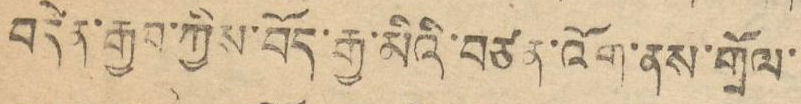བདེན་རྒྱབ་ཀྱིས་བོད་རྒྱ་མིའི་བཙན་འོག་ནས་གྲོལ་
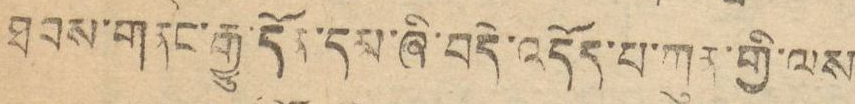ཐབས་གནང་རྒྱུ་དོན་དམ་ཞི་བདེ་འདོད་པ་ཀུན་གྱི་ལས
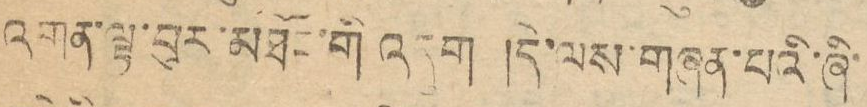འགན་ལྟ་བུར་མཐོང་གི་འདུག །དེ་ལས་གཞན་པའི་ཞི་
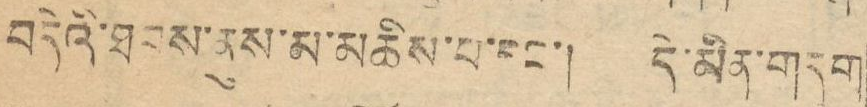བདེའི་ཐབས་ནུས་མ་མཆིས་པ་རང་། དེ་མིན་གདུག
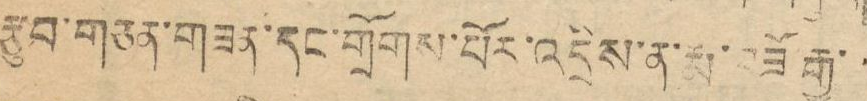རྩུབ་གཅན་གཟན་དང་གྲོགས་པོར་འདྲེས་ན་རྨ་བཟོ་རྒྱུ་
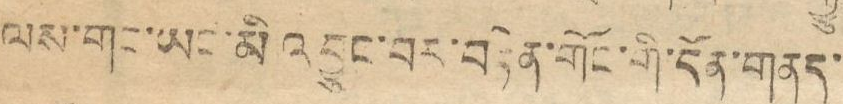ལས་གང་ཡང་མི འབྱུང་བར་བརྟེན་གོང་གི་དོན་གནད་
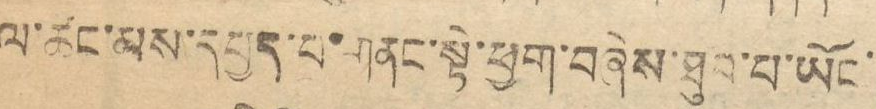ལ་ཚང་མས་དཔྱད་པ་གནང་སྟེ་ཕྱག་བཞེས་ཐུབ་པ་ཡོང་
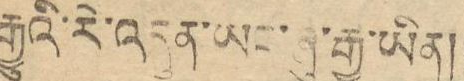རྒྱུའི་རེ་འདུན་ཡང་ཞུ་རྒྱུ་ཡིན༎
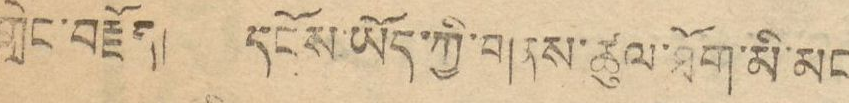གླེང་བརྗོད། དངོས་ཡོད་ཀྱི་གནས་ཚུལ་ཐོག་མི་མང
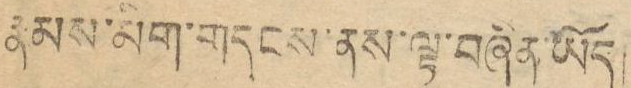རྣམས་མིག་གདངས་ནས་ལྟ་བཞིན་ཡོད།
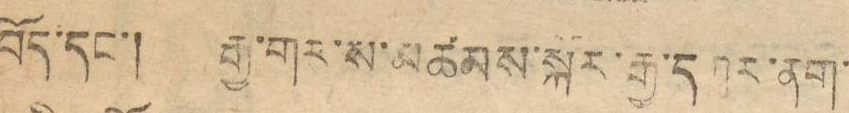བོད་དང་། རྒྱ་གར་ས་མཚམས་སྐོར་རྒྱ་དཀར་ནག་
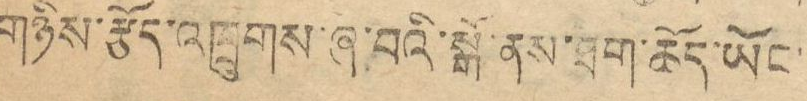གཉིས་རྩོད་འཁྲུགས་ཞ་བའི་སྒོ་ནས་ཐག་ཆོད་ཡོང་
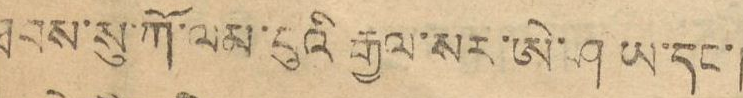ཐབས་སུ་ཀོ་ལམ་བུའི རྒྱལ་སར་ཨེ་ཤ ཡ་དང་།
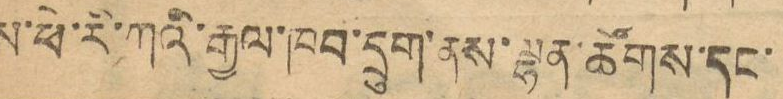ཨ་ཕི་རི་ཀའི་རྒྱལ་ཁབ་དྲུག་ནས་ལྷན་ཚོགས་དང་
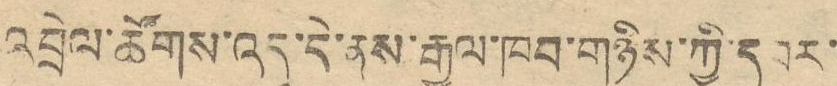འབྲེལ་ཚོགས་འདུ་དེ་ནས་རྒྱལ་ཁབ་གཉིས་ཀྱི་དབར་
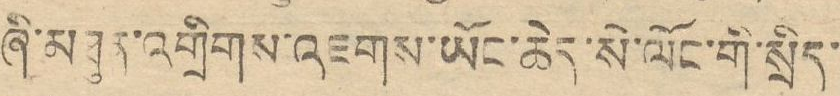ཞི་མཐུན་འགྲིགས་འཇགས་ཡོང་ཆེད་སེ་ལོང་གི་སྲིད་
